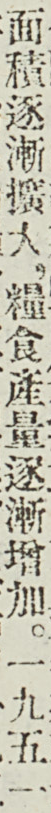面積逐漸擴大，糧食產量逐漸增加。一九五一
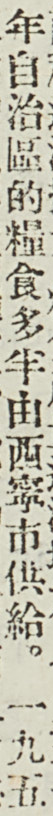年自治區的糧食多半由西寧市供給。一九五
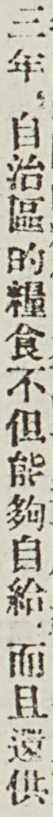三年，自治區的糧食不但能夠自給，而且還供
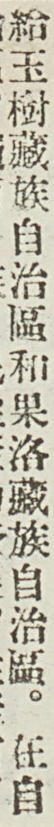給玉樹藏族自治區和果洛藏族自治區。在自
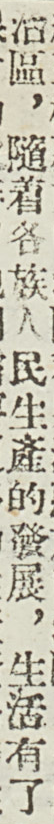治區，隨着各族人民生產的發展，生活有了
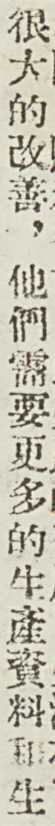很大的改善，他們需要更多的生產資料和生
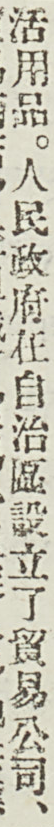活用品。人民政府在自治區設立了貿易公司、
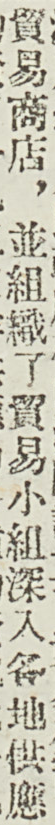貿易商點，並組織了貿易小組深入各地供應
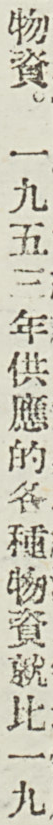物資。一九五三年供應的各種物資就比一九
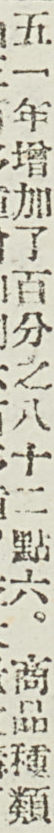五一年增加了百分之八十二點六。商品種類
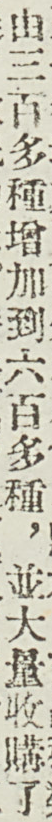由三百多種增加到六百多種，並大量收購了
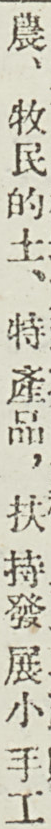農、牧民的土、特產品，扶持發展小手工
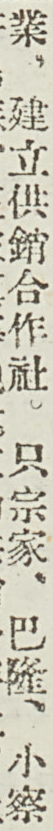業，建立供銷合作社。只宗家、巴隆、小察
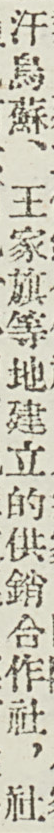汗烏蘇、王家旗等地建立的供銷合作社，社
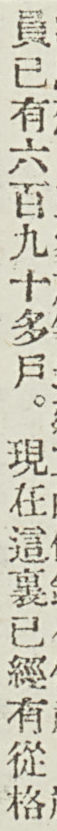員已有六百九十多戶。現在這裏已經有從格
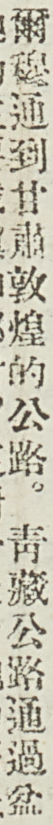爾穆通到甘肅敦煌的公路。靑藏公路通過盆
